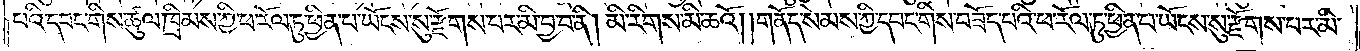པའི་དབང་གིས་ཚུལ་ཁྲིམས་ཀྱི་ཕ་རོལ་ཏུ་ཕྱིན་པ་ཡོངས་སུ་རྫོགས་པར་མི་བྱ་བ་ནི། མི་རིགས་མི་ཆའོ། །གནོད་སེམས་ཀྱི་དབང་གིས་བཟོད་པའི་ཕ་རོལ་ཏུ་ཕྱིན་པ་ཡོངས་སུ་རྫོགས་པར་མི་
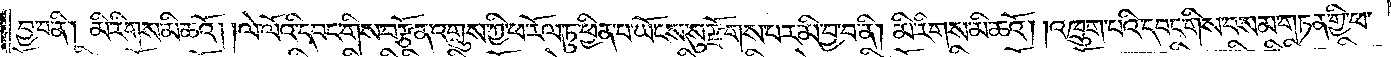བྱ་བ་ནི་མི་རིགས་མི་ཆའོ། །ལེ་ལོའི་དབང་གིས་བརྩོན་འགྲུས་ཀྱི་ཕ་རོལ་ཏུ་ཕྱིན་པ་ཡོངས་སུ་རྫོགས་པར་མི་བྱ་བ་ནི། མི་རིགས་མི་ཆའོ། །འཁྲུག་པའི་དབང་གིས་བསམ་གཏན་གྱི་ཕ་
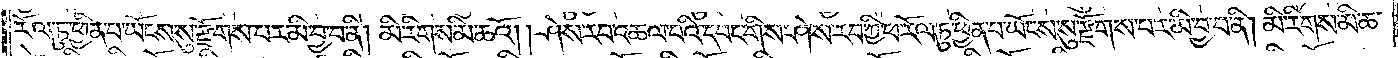རོལ་ཏུ་ཕྱིན་པ་ཡོངས་སུ་རྫོགས་པར་མི་བྱ་བ་ནི། མི་རིགས་མི་ཆའོ། །ཤེས་རབ་འཆལ་པའི་དབང་གིས་ཤེས་རབ་ཀྱི་ཕ་རོལ་ཏུ་ཕྱིན་པ་ཡོངས་སུ་རྫོགས་པར་མི་བྱ་བ་ནི། མི་རིགས་མི་ཆ་
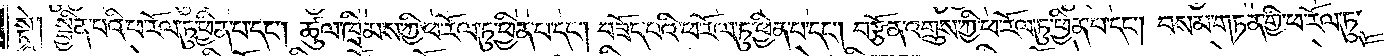སྟེ། སྦྱིན་པའི་ཕ་རོལ་ཏུ་ཕྱིན་པ་དང༌། ཚུལ་ཁྲིམས་ཀྱི་ཕ་རོལ་ཏུ་ཕྱིན་པ་དང༌། བཟོད་པའི་ཕ་རོལ་ཏུ་ཕྱིན་པ་དང༌། བརྩོན་འགྲུས་ཀྱི་ཕ་རོལ་ཏུ་ཕྱིན་པ་དང༌། བསམ་གཏན་གྱི་ཕ་རོལ་ཏུ་
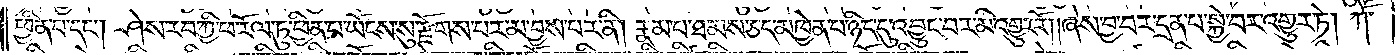ཕྱིན་པ་དང༌། ཤེས་རབ་ཀྱི་ཕ་རོལ་ཏུ་ཕྱིན་པ་ཡོངས་སུ་རྫོགས་པར་མ་བྱས་པར་ནི། རྣམ་པ་ཐམས་ཅད་མཁྱེན་པ་ཉིད་དུ་འབྱུང་བར་མི་འགྱུར་རོ། ཞེས་བྱ་བར་དྲན་པ་སྐྱེ་བར་འགྱུར་ཏེ། ཀཽ་
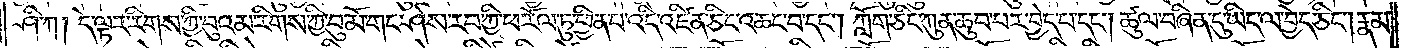ཤི་ཀ། དེ་ལྟར་རིགས་ཀྱི་བུའམ་རིགས་ཀྱི་བུ་མོ་གང་ཤེས་རབ་ཀྱི་ཕ་རོལ་ཏུ་ཕྱིན་པ་འདི་འཛིན་ཅིང་འཆང་པ་དང༌། ཀློག་ཅིང་ཀུན་ཆུབ་པར་བྱེད་པ་དང༌། ཚུལ་བཞིན་དུ་ཡིད་ལ་བྱེད་ཅིང༌། རྣམ་
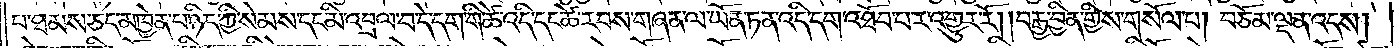པ་ཐམས་ཅད་མཁྱེན་པ་ཉིད་ཀྱི་སེམས་དང་མི་འབྲལ་བ་དེ་དག་གི་ཚེ་འདི་དང་ཚེ་རབས་གཞན་ལ་ཡོན་ཏན་འདི་དག་འཐོབ་པར་འགྱུར་རོ། །བརྒྱ་བྱིན་གྱིས་གསོལ་བ། བཅོམ་ལྡན་འདས།
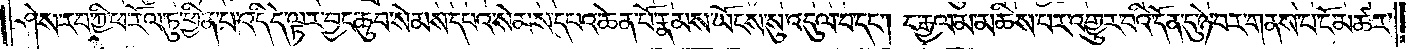ཤེས་རབ་ཀྱི་ཕ་རོལ་ཏུ་ཕྱིན་པ་འདི་དེ་ལྟར་བྱང་ཆུབ་སེམས་དཔའ་སེམས་དཔའ་ཆེན་པོ་རྣམས་ཡོངས་སུ་འདུལ་བ་དང༌། ང་རྒྱལ་མ་མཆིས་པར་འགྱུར་བའི་དོན་དུ་ཉེ་བར་གནས་པ་ངོ་མཚར་
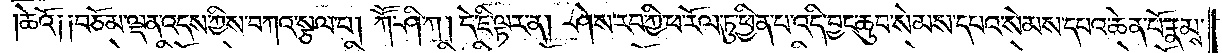ཆེའོ༎ བཅོམ་ལྡན་འདས་ཀྱིས་བཀའ་སྩལ་པ། ཀཽ་ཤི་ཀ། དེ་ཇི་ལྟར་ན། ཤེས་རབ་ཀྱི་ཕ་རོལ་ཏུ་ཕྱིན་པ་འདི་བྱང་ཆུབ་སེམས་དཔའ་སེམས་དཔའ་ཆེན་པོ་རྣམས་
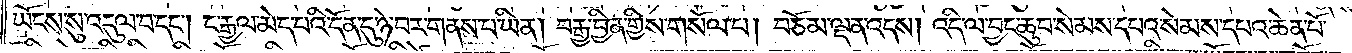ཡོངས་སུ་འདུལ་བ་དང༌། ང་རྒྱལ་མེད་པའི་དོན་དུ་ཉེ་བར་གནས་པ་ཡིན། བརྒྱ་བྱིན་གྱིས་གསོལ་པ། བཅོམ་ལྡན་འདས། འདི་ལ་བྱང་ཆུབ་སེམས་དཔའ་སེམས་དཔའ་ཆེན་པོ་
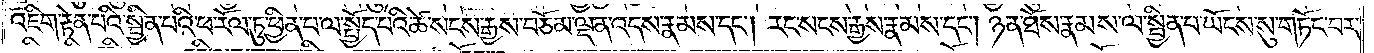འཇིག་རྟེན་པའི་སྦྱིན་པའི་ཕ་རོལ་ཏུ་ཕྱིན་པ་ལ་སྤྱོད་པའི་ཚེ་སངས་རྒྱས་བཅོམ་ལྡན་འདས་རྣམས་དང༌། རང་སངས་རྒྱས་རྣམས་དང༌། ཉན་ཐོས་རྣམས་ལ་སྦྱིན་པ་ཡོངས་སུ་གཏོང་བར་
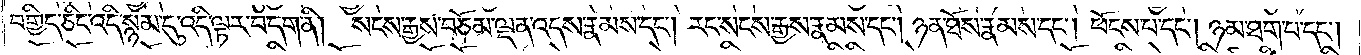བགྱིད་ཅིང་འདི་སྙམ་དུ་འདི་ལྟར་བདག་ནི། སངས་རྒྱས་བཅོམ་ལྡན་འདས་རྣམས་དང༌། རང་སངས་རྒྱས་རྣམས་དང༌། ཉན་ཐོས་རྣམས་དང༌། ཕོངས་པ་དང༌། ཉམ་ཐག་པ་དང༌།
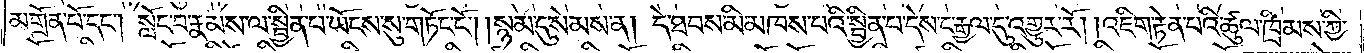མགྲོན་པོ་དང༌། སློང་བ་རྣམས་ལ་སྦྱིན་པ་ཡོངས་སུ་གཏོང་ངོ༌། །སྙམ་དུ་སེམས་ན། དེ་ཐབས་མི་མཁས་པའི་སྦྱིན་པ་དེས་ང་རྒྱལ་དུ་འགྱུར་རོ། །འཇིག་རྟེན་པའི་ཚུལ་ཁྲིམས་ཀྱི་
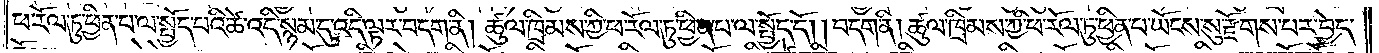ཕ་རོལ་ཏུ་ཕྱིན་པ་ལ་སྤྱོད་པའི་ཚེ་འདི་སྙམ་དུ་འདི་ལྟར་བདག་ནི། ཚུལ་ཁྲིམས་ཀྱི་ཕ་རོལ་ཏུ་ཕྱིན་པ་ལ་སྤྱོད་དོ། །བདག་ནི། ཚུལ་ཁྲིམས་ཀྱི་ཕ་རོལ་ཏུ་ཕྱིན་པ་ཡོངས་སུ་རྫོགས་པར་བྱེད་
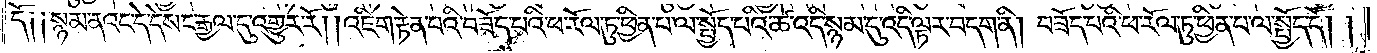དོ། །སྙམ་ནའང་དེ་དེས་ང་རྒྱལ་དུ་འགྱུར་རོ། །འཇིག་རྟེན་པའི་བཟོད་པའི་ཕ་རོལ་ཏུ་ཕྱིན་པ་ལ་སྤྱོད་པའི་ཚེ་འདི་སྙམ་དུ་འདི་ལྟར་བདག་ནི། བཟོད་པའི་ཕ་རོལ་ཏུ་ཕྱིན་པ་ལ་སྤྱོད་དོ། །
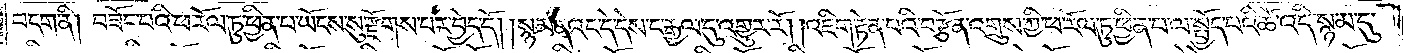བདག་ནི། བཟོད་པའི་ཕ་རོལ་ཏུ་ཕྱིན་པ་ཡོངས་སུ་རྫོགས་པར་བྱེད་དོ། །སྙམ་ནའང་དེ་དེས་ང་རྒྱལ་དུ་འགྱུར་རོ། །འཇིག་རྟེན་པའི་བརྩོན་འགྲུས་ཀྱི་ཕ་རོལ་ཏུ་ཕྱིན་པ་ལ་སྤྱོད་པའི་ཚེ་འདི་སྙམ་དུ་
